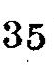35
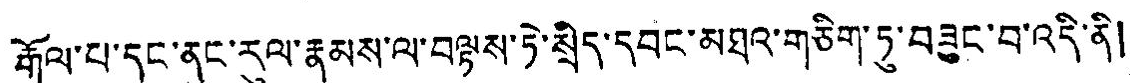རྒོལ་པ་དང་ནང་རུལ་རྣམས་ལ་བལྟས་ཏེ་སྲིད་དབང་མཐའ་གཅིག་ཏུ་བཟུང་བ་འདི་ནི།
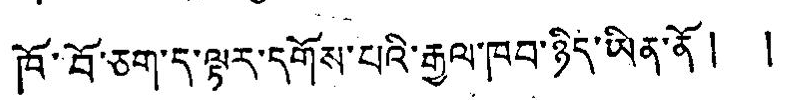ཁོ་བོ་ཅག་ད་ལྟར་དགོས་པའི་རྒྱལ་ཁབ་ཉིས་ཡིན་ནོ། །
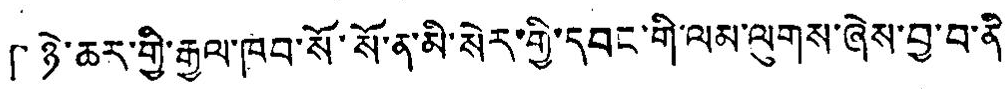「ཉེ་ཆར་གྱི་རྒྱལ་ཁབ་སོ་སོ་ན་མི་སེར་གྱི་དབང་གི་ལམ་ལུགས་ཞེས་བྱ་བ་ནི།
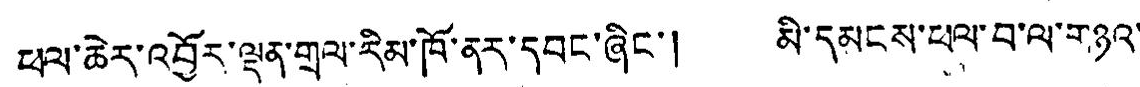ཕལ་ཆེར་འབྱོར་ལྡན་གྲལ་རིམ་ཁོ་ནར་དབང་ཞིང་། མི་དམངས་ཕལ་བ་ལ་གཉའ་
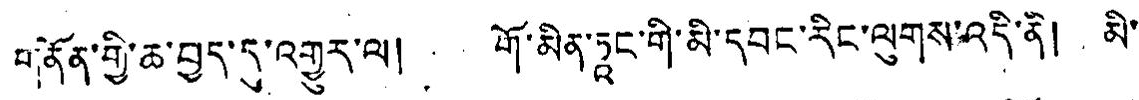གནོན་གྱི་ཆ་བྱད་དུ་འགྱུར་ལ། གོ་མིན་ཏཱང་གི་མི་དབང་རིང་ལུགས་འདི་ནི། མི་
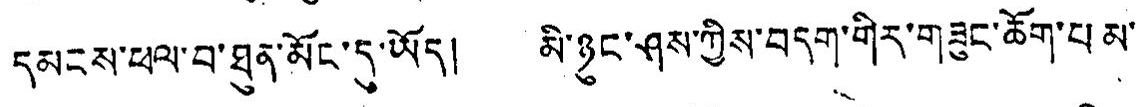དམངས་ཕལ་བ་ཐུན་མོང་དུ་ཡོད། མི་ཉུང་ཤས་ཀྱིས་བདག་གིར་གཟུང་ཆོག་པ མ་
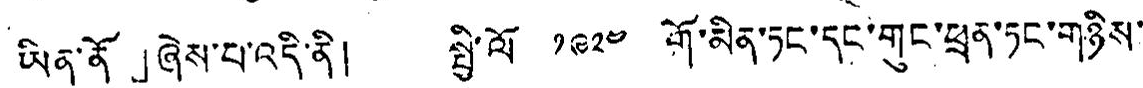ཡིན་ནོ」ཞེས་པ་འདི་ནི། སྤྱི་ལོ ༡༩༢༤ གོ་མིན་ཏང་དང་གུང་ཕྲན་ཏང་གཉིས་
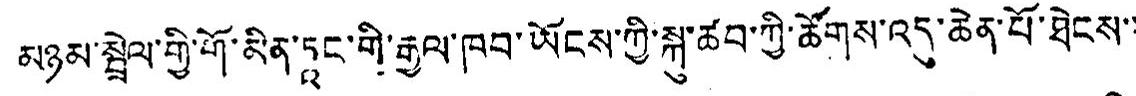མཉམ་སྦྲེལ་གྱི་གོ་མིན་ཏཱང་གི་རྒྱལ་ཁབ་ཡོངས་ཀྱི་སྐུ་ཚབ་ཀྱི་ཚོགས་འདུ་ཆེན་པོ་ཐེངས་་
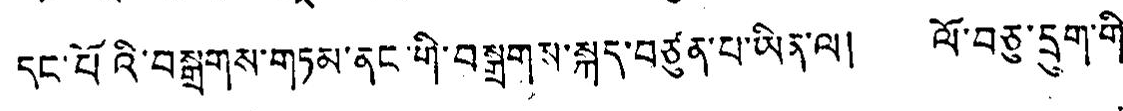དང་པོའི་བསྒྲགས་གཏམ་ནང་གི་བསྒྲགས་སྐད་བཙུན་པ་ཡིན་ལ། ལོ་བཅུ་དྲུག་གི་
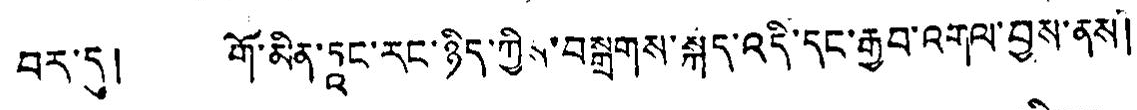བར་དུ། གོ་མིན་ཏཱང་རང་ཉིད་ཀྱིས་བསྒྲགས་སྐད་འདི་དང་རྒྱབ་འགལ་བྱས་ནས།
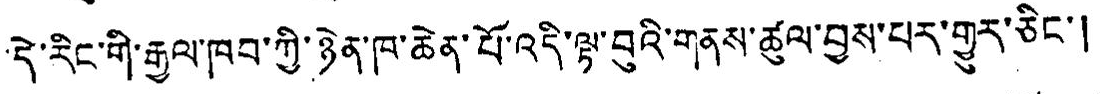དེ་རིང་གི་རྒྱལ་ཁབ་ཀྱི་ཉེན་ཁ་ཆེན་པོ་འདི་ལྟ་བུའི་གནས་ཚུལ་བྱས་པར་གྱུར་ཅིང་།
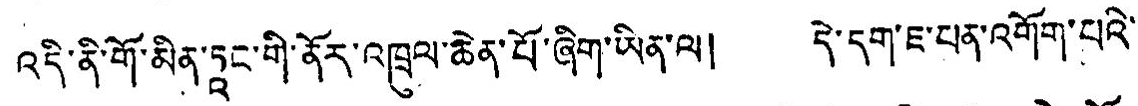འདི་ནི་གོ་མིན་ཏཱང་གི་ནོར་འཁྲུལ་ཆེན་པོ་ཞིག་ཡིན་ལ། དེ་དག་ཇ་པན་འགོག་པའི་
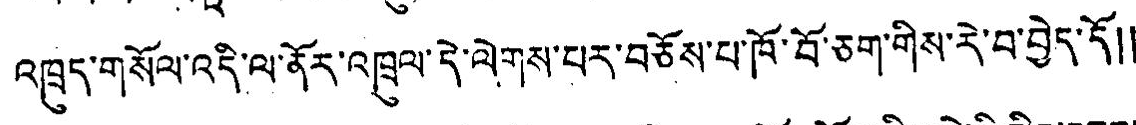འཁྲུད་གསོལ་འདི་ལ་ནོར་འཁྲུལ་དེ་ལེགས་པར་བཅོས་པ་ཁོ་བོ་ཅག་གིས་རེ་བ་བྱེད་དོ༎
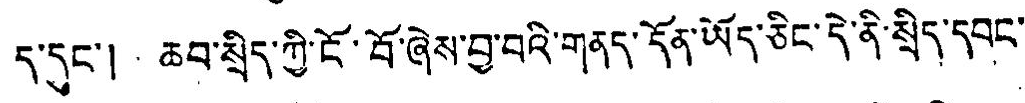ད་དུང་། ཆབ་སྲིད་ཀྱི་ངོ་བོ་ཞེས་བྱ་བའི་གནད་དོན་ཡོད་ཅིང་དེ་ནི་སྲིད་དབང་
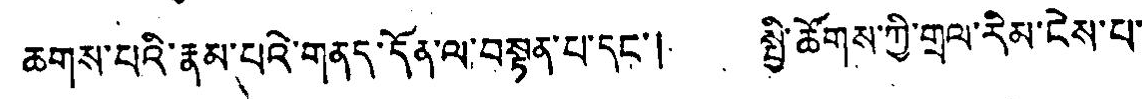ཆགས་པའི་རྣམ་པའི་གནད་དོན་ལ་བསྟན་པ་དང་། སྤྱི་ཚོགས་ཀྱི་གྲལ་རིམ་ངེས་པ་
